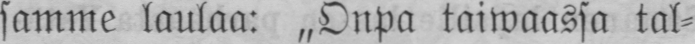samme laulaa: „Onpa taiwaassa tal-
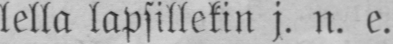lella lapsillekin j. n. e.
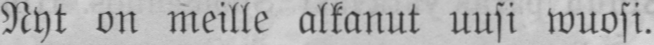Nyt on meille alkanut uusi wuosi.
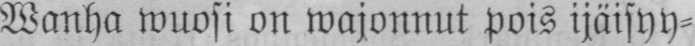Wanha wuosi on wajonnut pois ijäisyy-
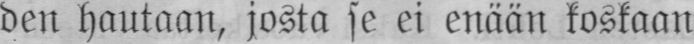den hautaan, josta se ei enään koskaan
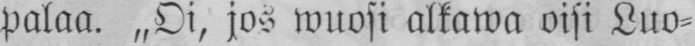palaa. „Oi, jos wuosi alkawa oisi Luo-
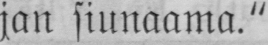jan siunaama."
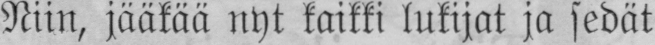Niin, jääkää nyt kaikki lukijat ja sedät
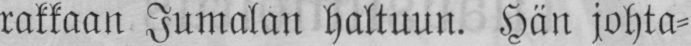rakkaan Jumalan haltuun. Hän johta-
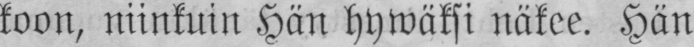koon, niinkuin Hän hywäksi näkee. Hän
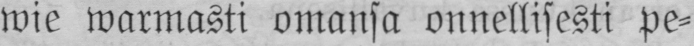wie warmasti omansa onnellisesti pe-
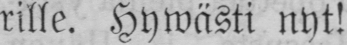rille. Hywästi nyt!
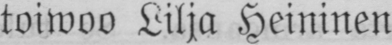toiwoo Lilja Heininen.
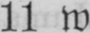11 w.
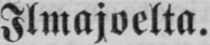Ilmajoelta.
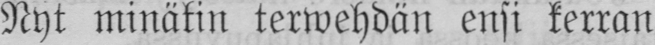Nyt minäkin terwehdän ensi kerran
